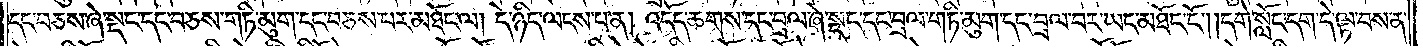དང་བཅས་ཞེ་སྡང་དང་བཅས་གཏི་མུག་དང་བཅས་པར་མཐོང་ལ། དེ་ཉིད་ལངས་པ་ན། འདོད་ཆགས་དང་བྲལ་ཞེ་སྡང་དང་བྲལ་གཏི་མུག་དང་བྲལ་བར་ཡང་མཐོང་ངོ༌། །དགེ་སློང་དག་དེ་ལྟ་བས་ན་
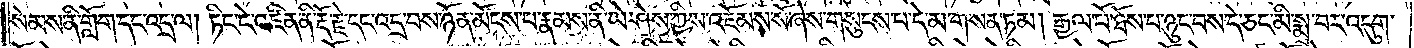སེམས་ནི་གློག་དང་འདྲ་ལ། ཏིང་ངེ་འཛིན་ནི་རྡོ་རྗེ་དང་འདྲ་བས་ཉོན་མོངས་པ་རྣམས་ནི་ཡེ་ཤེས་ཀྱིས་འཇོམས་སོ་ཞེས་གསུངས་པ་དེ་མ་གསན་ཏམ། རྒྱལ་པོ་ཐོས་པ་ཉུང་བས་དེ་ཅང་མི་སྨྲ་བར་འདུག་
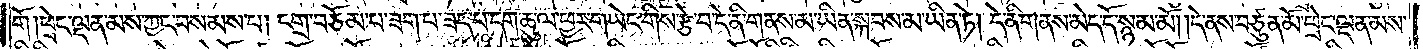གོ །ཕྲེང་ལྡན་མས་ཀྱང་བསམས་པ། དགྲ་བཅོམ་པ་ཟག་པ་ཟད་པ་དག་ཆུ་ལ་ཕྱར་གཡེང་གིས་རྩེ་བ་དེ་ནི་གནས་མ་ཡིན་སྐབས་མ་ཡིན་ཏེ། དེ་ནི་གནས་མེད་དོ་སྙམ་མོ། །དེ་ནས་བཙུན་མོ་ཕྲེང་ལྡན་མས་
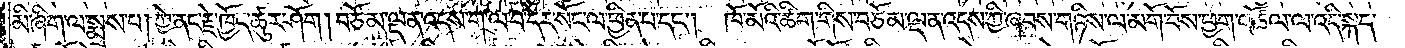མི་ཞིག་ལ་སྨྲས་པ། ཀྱེ་ནང་རྗེ་ཁྱོད་ཚུར་ཤོག །བཅོམ་ལྡན་འདས་ག་ལ་བ་དེར་སོང་ལ་ཕྱིན་པ་དང༌། ཁོ་མོའི་ཚིག་གིས་བཅོམ་ལྡན་འདས་ཀྱི་ཞབས་གཉིས་ལ་མགོ་བོས་ཕྱག་འཚོལ་ལ་འདི་སྐད་
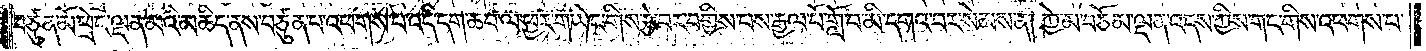བཙུན་མོ་ཕྲེང་ལྡན་མའི་མཆིད་ནས་བཙུན་པ་འཕགས་པ་འདི་དག་ཆབ་ལ་ཕྱར་གཡེང་གིས་རྩེ་བར་བགྱིས་པས་རྒྱལ་པོ་གློ་བ་མི་དགའ་བར་སེམས་ན། ཀྱེ་མ་བཅོམ་ལྡན་འདས་ཀྱིས་གང་གིས་འཕགས་པ་
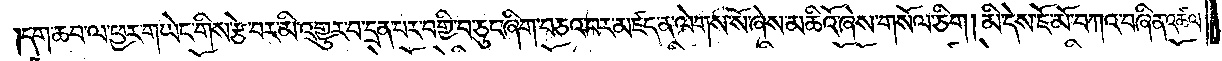དག་ཆབ་ལ་ཕྱར་གཡེང་གིས་རྩེ་བར་མི་འགྱུར་བ་དྲན་པར་བགྱི་བ་ཅུང་ཞིག་བཅའ་བར་མཛད་ན་ལེགས་སོ་ཞེས་མཆིའོ་ཞེས་གསོལ་ཅིག །མི་དེས་ཇོ་མོ་བཀའ་བཞིན་འཚལ་
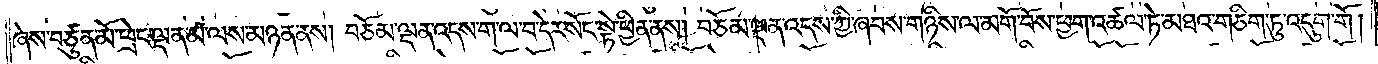ཞེས་བཙུན་མོ་ཕྲེང་ལྡན་མ་ལས་མཉན་ནས། བཅོམ་ལྡན་འདས་ག་ལ་བ་དེར་སོང་སྟེ་ཕྱིན་ནས། བཅོམ་ལྡན་འདས་ཀྱིས་ཞབས་གཉིས་ལ་མགོ་བོས་ཕྱག་འཚལ་ཏེ་མཐའ་གཅིག་ཏུ་འདུག་གོ །
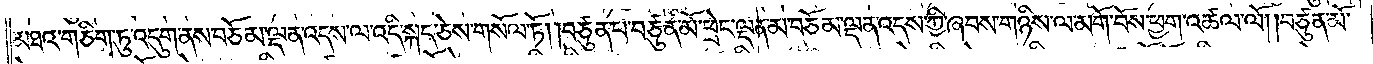མཐའ་གཅིག་ཏུ་འདུག་ནས་བཅོམ་ལྡན་འདས་ལ་འདི་སྐད་ཅེས་གསོལ་ཏོ། །བཙུན་པ་བཙུན་མོ་ཕྲེང་ལྡན་མ་བཅོམ་ལྡན་འདས་ཀྱི་ཞབས་གཉིས་ལ་མགོ་བོས་ཕྱག་འཚལ་ལོ། །བཙུན་མོ་
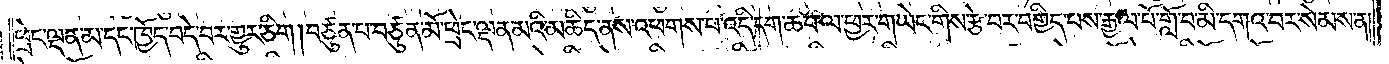ཕྲེང་ལྡན་མ་དང་ཁྱོད་བདེ་བར་གྱུར་ཅིག །བཙུན་པ་བཙུན་མོ་ཕྲེང་ལྡན་མའི་མཆིད་ནས་འཕགས་པ་འདི་དག་ཆབ་ལ་ཕྱར་གཡེང་གིས་རྩེ་བར་བགྱིད་པས་རྒྱལ་པོ་གློ་བ་མི་དགའ་བར་སེམས་ན།
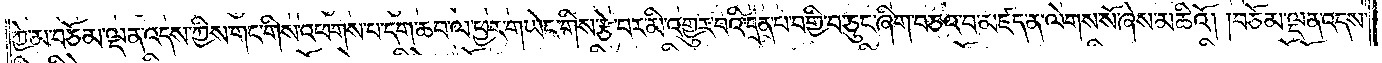ཀྱེ་མ་བཅོམ་ལྡན་འདས་ཀྱིས་གང་གིས་འཕགས་པ་དག་ཆབ་ལ་ཕྱར་གཡེང་གིས་རྩེ་བར་མི་འགྱུར་བའི་དྲན་པ་བགྱི་བ་ཅུང་ཞིག་བཅའ་བ་མཛད་ན་ལེགས་སོ་ཞེས་མཆིའོ། །བཅོམ་ལྡན་འདས་
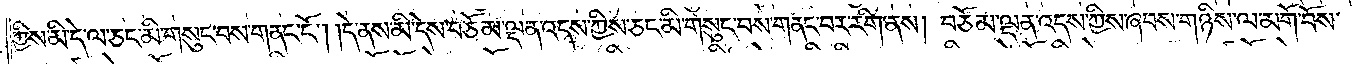ཀྱིས་མི་དེ་ལ་ཅང་མི་གསུང་བས་གནང་ངོ༌། །དེ་ནས་མི་དེས་བཅོམ་ལྡན་འདས་ཀྱིས་ཅང་མི་གསུང་བས་གནང་བར་རིག་ནས། བཅོམ་ལྡན་འདས་ཀྱིས་ཞབས་གཉིས་ལ་མགོ་བོས་
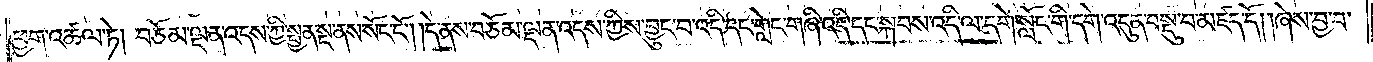ཕྱག་འཚལ་ཏེ། བཅོམ་ལྡན་འདས་ཀྱི་སྤྱན་སྔ་ནས་སོང་ངོ༌། །དེ་ནས་བཅོམ་ལྡན་འདས་ཀྱིས་བྱུང་བ་འདི་དང་གླེང་གཞི་འདི་དང་སྐབས་འདི་ལ་དགེ་སློང་གི་དགེ་འདུན་བསྡུ་བ་མཛད་དོ། །ཞེས་བྱ་བ་
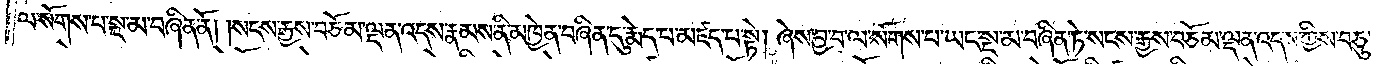ལ་སོགས་པ་སྔ་མ་བཞིན་ནོ། །སངས་རྒྱས་བཅོམ་ལྡན་འདས་རྣམས་ནི་མཁྱེན་བཞིན་དུ་རྨེད་པ་མཛད་པ་སྟེ། ཞེས་བྱ་བ་ལ་སོགས་པ་ཡང་སྔ་མ་བཞིན་ཏེ་སངས་རྒྱས་བཅོམ་ལྡན་འདས་ཀྱིས་བཅུ་
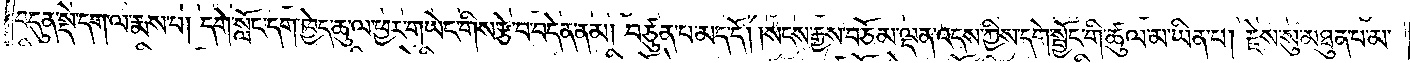བདུན་སྡེ་དག་ལ་རྨས་པ། དགེ་སློང་དག་ཁྱེད་ཆུ་ལ་ཕྱར་གཡེང་གིས་རྩེ་བ་བདེན་ནམ། བཙུན་པ་མད་དོ། །སངས་རྒྱས་བཅོམ་ལྡན་འདས་ཀྱིས་དགེ་སྦྱོང་གི་ཚུལ་མ་ཡིན་པ། རྗེས་སུ་མཐུན་པ་མ་
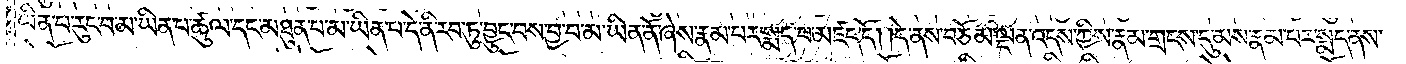ཡིན་པ་རུང་བ་མ་ཡིན་པ་ཚུལ་དང་མཐུན་པ་མ་ཡིན་པ་དེ་ནི་རབ་ཏུ་བྱུང་བས་བྱ་བ་མ་ཡིན་ནོ་ཞེས་རྣམ་པར་སྨད་པ་མཛད་དོ། །དེ་ནས་བཅོམ་ལྡན་འདས་ཀྱིས་རྣམ་གྲངས་དུ་མས་རྣམ་པར་སྨད་ནས་
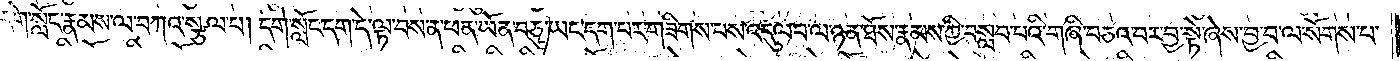དགེ་སློང་རྣམས་ལ་བཀའ་སྩལ་པ། དགེ་སློང་དག་དེ་ལྟ་བས་ན་ཕན་ཡོན་བཅུ་ཡང་དག་པར་གཟིགས་པས་འདུལ་བ་ལ་ཉན་ཐོས་རྣམས་ཀྱི་བསླབ་པའི་གཞི་བཅའ་བར་བྱ་སྟེ་ཞེས་བྱ་བ་ལ་སོགས་པ་
